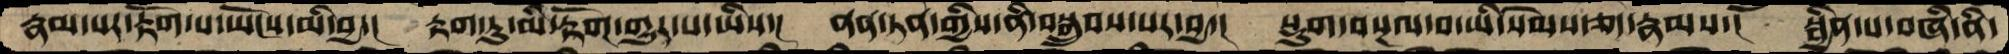རྣམ་པར་རྟོག་པ་ཡོངས་མི་བྱ་།  རྟག་ཏུ་མི་རྟོག་གྱུར་པ་ཡིས་།  ནན་ཏན་གྱིས་ནི་བསྒྲུབས་པར་བྱ་།  སྡུག་བསྔལ་བ་ཡི་སེམས་ཅད་རྣམས་།  སྦྱིན་པ་བཞི་ནི་
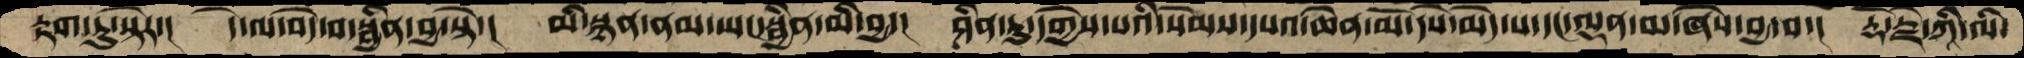རྟག་ཏུ་སྟེར་།  དེ་ལ་བདེ་བ་སྦྱིན་བྱ་སྟེ་།  མི་སྙན་ནམ་ཡང་སྦྱིན་མི་བྱ་།  ཤིན་ཏུ་དགྱེས་པའི་སེམས་དཔའ་ཆེན་མོ་དཔེ་མེད་པ་དང་ལྡན་མ་ཞེས་བྱ་བ་།  རྡོ་རྗེ་ཀཱི་ལི་
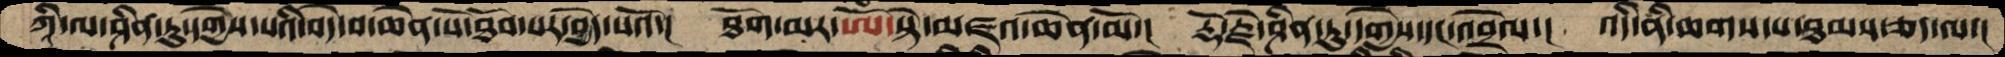ཀཱི་ལ་ཤིན་ཏུ་དགྱེས་པའི་བདེ་བ་ཆེན་པོ་ཐོབ་པར་བྱེད་པའོ་།  ཐོག་མར་ཨོཾ་སྟེ་མཛའ་ཆེན་མོ་།  རྡོ་རྗེ་ཤིན་ཏུ་དགྱེས་དང་འབྲེལ་།  འདི་ནི་ཆགས་པ་ཐམས་ཅད་ལ་།
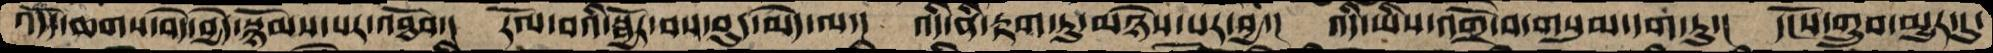འདོད་ཆགས་བདེ་བྱེད་སྙོམས་པར་འཐོབ་།  རོལ་བའི་སྦྱོར་བས་བུད་མེད་ལ་།  འདི་ནི་རྟག་ཏུ་མཉེས་པར་བྱ་།  འདི་ཡིས་འགྲོ་བ་གསུམ་དག་ཏུ་།  དངོས་གྲུབ་མྱུར་དུ་
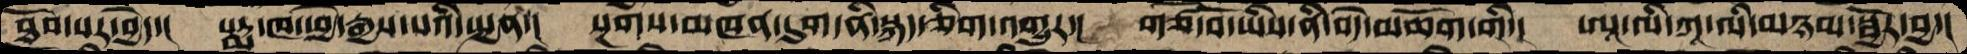ཐོབ་པར་བྱེད་།  པདྨ་ཁ་ཕྱེ་རྒྱས་པའི་སྤྱན་།  སྔགས་མཁན་དུག་ནི་སྐད་ཅིག་འགྱུར་།  གཙོ་བོ་ཡིས་ནི་བདེ་མཆོག་གི་།  ཨཱ་ལི་ཀཱ་ལི་མཉམ་སྦྱོར་བྱ་།
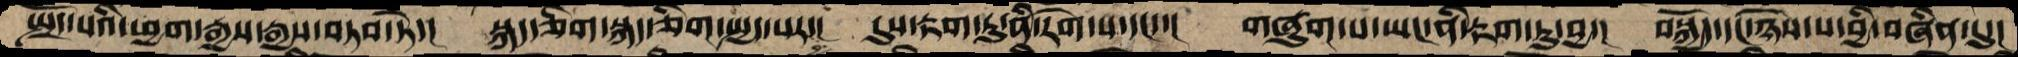སྤྲོད་པའི་ཕྱག་རྒྱས་རྒྱས་བཏབ་ཏེ་།   སྐད་ཅིག་སྐད་ཅིག་སྤྱད་པར་།   དུས་རྟག་ཏུ་ནི་རེག་པ་དང་་།  གཞུག་པ་ཡང་ནི་རྟག་ཏུ་བྱ་།  བསྐྱོད་དང་ཉེས་པ་བྱི་བཞིན་དུ་།
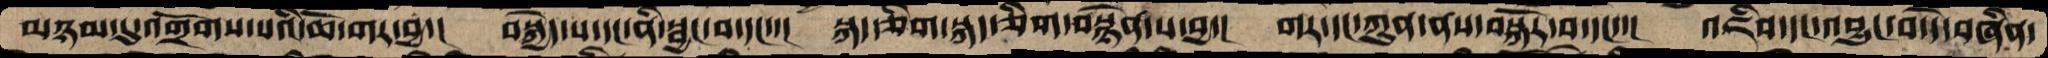མཉམ་དུ་འགྲོགས་པའི་ཆོ་གར་བྱ་།  བསྐྱེད་པ་དང་ནི་སྦྱང་བ་དང་།  སྐད་ཅིག་སྐད་ཅིག་བསྙེན་པ་བྱ་།  གར་དང་ཀུན་ནས་བསྐོར་བ་དང་་།  འཇིས་དང་འབྱུང་བ་དེ་བཞིན་
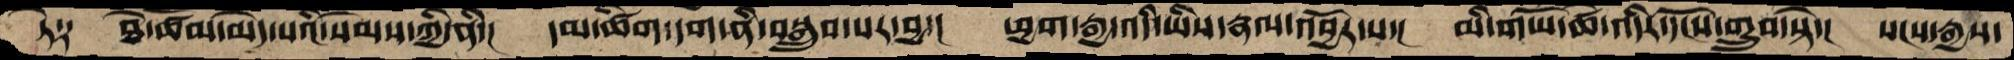ཏེ༑   ཐེ་ཚོམ་མེད་པའི་སེམས་ཀྱི་ནི་།  དམ་ཚིག་དག་ནི་བསྒྲུབ་པར་བྱ་།  ཕྱག་རྒྱ་འདི་ཡིས་རྣལ་འབྱོར་པ་།  མི་གཡོ་ཚེ་འདིར་དངོས་གྲུབ་སྟེ་།  སངས་རྒྱས་
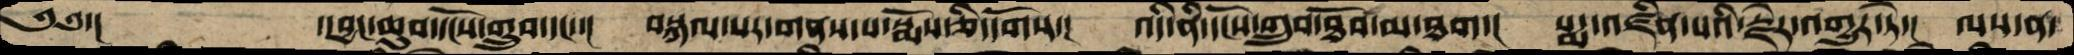༄༅་།        ་།བྱང་ཆུབ་དངོས་གྲུབ་དང་་།   བསྐལ་པར་གནས་པ་སྨོས་ཅི་དགོས་།   འདི་ནི་དངོས་གྲུབ་ཐོབ་མ་ཐག་།  པདྨ་འཛིན་པའི་རྗེར་འགྱུར་ཏེ་།  ལས་ན་
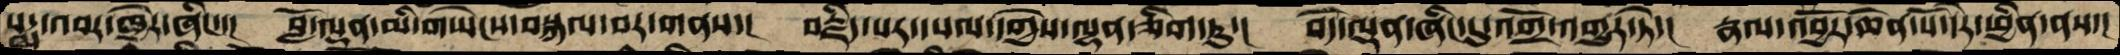པདྨ་འབར་ཁྱེར་ཞིང་་།   བློ་ལྡན་མི་གཡེངས་བསྐལ་བར་གནས་།  བརྗིད་པར་དཔལ་དགྱེས་ལྷན་ཅིག་ཏུ་།   བདེ་ལྡན་ཞིང་དུ་འགྲོ་འགྱུར་ཏེ་།  རྣལ་འབྱོར་ཆེན་པོ་དེར་ཕྱིན་ནས་།
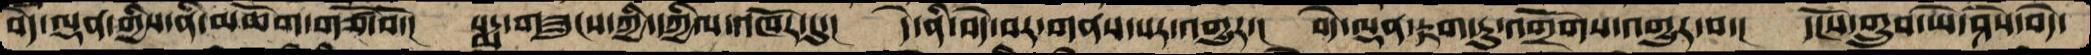བདེ་ལྡན་གྱིས་ནི་མཆོག་གཙོ་བོ་།  པདྨ་གཟུངས་ཀྱི་དཀྱིལ་འཁོར་དུ་།   དེ་ནི་བདེ་བར་གནས་པར་འགྱུར་།  བདེ་ལྡན་རྟག་ཏུ་འགྲོགས་འགྱུར་བ་།  དངོས་གྲུབ་ཡེ་ཤེས་བདེ་
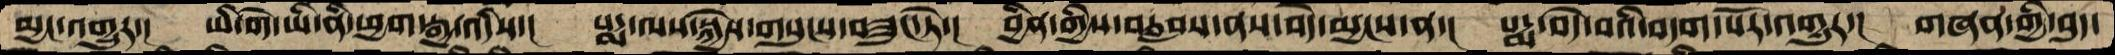མྱང་འགྱུར་།  ཡི་གེ་ཡི་ནི་ཕྱག་རྒྱ་འདིས་།  པདྨ་ལས་སྐྱེས་གསུངས་བཟུང་ཏེ་།  བྱིན་གྱིས་བརླབས་ནས་བདེ་མྱངས་ན་།  པདྨ་བདེ་བའི་བདག་པོར་འགྱུར་།  གཞན་གྱི་བུད་
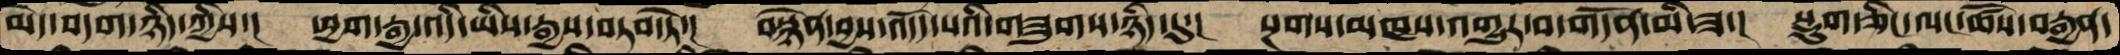མེད་བདག་ཉིད་ཀྱིས་།   ཕྱག་རྒྱ་འདི་ཡིས་རྒྱས་བཏབ་ཏེ་།  བསྙེན་བྱས་འདོད་པའི་གཟུགས་ཉིད་དུ་།  སྔགས་མཁས་འགྱུར་བ་གདོན་མི་ཟ་།  སྡུག་ཅིང་ལང་ཚོས་བརྒྱན་
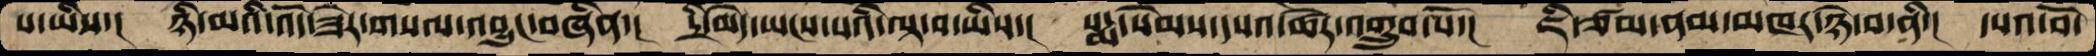པ་ཡིས་།  ཉི་མའི་འོད་ཟེར་གསལ་འབྱུང་བཞིན་།  དྲི་མེད་ཡངས་པའི་ལྟ་བ་ཡིས་།  པདྨ་སེམས་དཔའ་ཚོར་འགྲུབ་པོ་།  ཇི་ཙམ་ནམ་མཁར་ཉེ་བ་ནི་།  དཔའ་བོ་
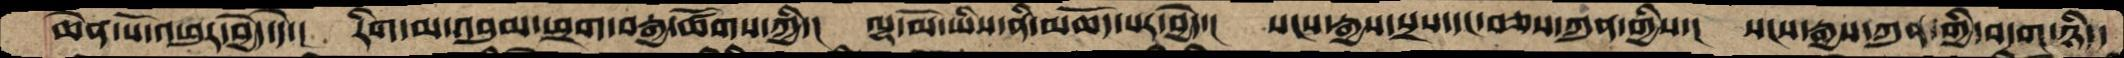ཆེན་པོ་འཕུར་བྱེད་དེ་།  རིག་མ་འབུམ་ཕྲག་བརྒྱ་ཚོགས་ཀྱི་།  ལྷ་མོ་ཡིས་ནི་མཆོད་པར་བྱེད་།  སངས་རྒྱས་སྲས་དང་བཅས་ཀུན་གྱིས་།  སངས་རྒྱས་ཀུན་གྱི་བདག་ཉིད་
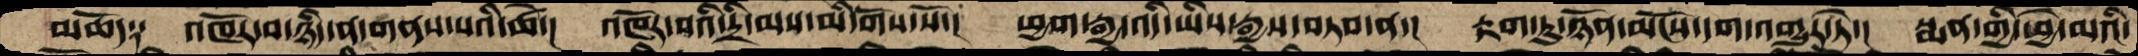མཆོད༑  འཁོར་བ་ཉིད་ན་གནས་པའི་ཚེ་།  འཁོར་བའི་དྲི་མས་མི་གོས་སོ་།  ཕྱག་རྒྱ་འདི་ཡིས་རྒྱས་བཏབ་ན་།  རྟག་ཏུ་ཉོན་མོངས་དག་འགྱུར་ཏེ་།  སྨན་གྱི་ཕྱེ་མའི་
